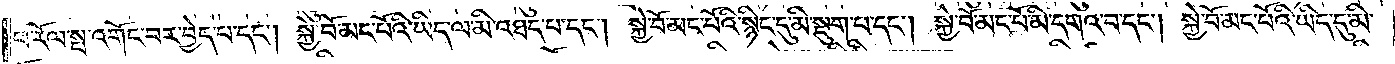ཕ་རོལ་སྤ་འགོང་བར་བྱེད་པ་དང༌། སྐྱེ་བོ་མང་པོའི་ཡིད་ལ་མི་འཐད་པ་དང༌། སྐྱེ་བོ་མང་པོའི་སྙིང་དུ་མི་སྡུག་པ་དང༌། སྐྱེ་བོ་མང་པོ་མི་དགའ་བ་དང༌། སྐྱེ་བོ་མང་པོའི་ཡིད་དུ་མི་
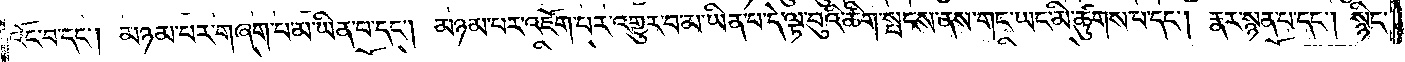འོང་བ་དང༌། མཉམ་པར་གཞག་པ་མ་ཡིན་པ་དང༌། མཉམ་པར་འཇོག་པར་འགྱུར་བ་མ་ཡིན་པ་དེ་ལྟ་བུའི་ཚིག་སྤངས་ནས་གང་ཡང་མི་ཚུགས་པ་དང༌། རྣར་སྙན་པ་དང༌། སྙིང་
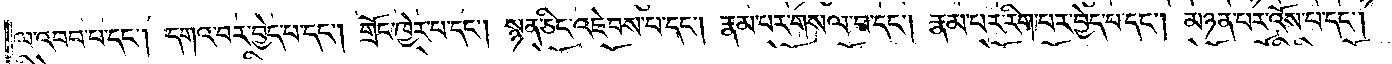ལ་འབབ་པ་དང༌། དགའ་བར་བྱེད་པ་དང༌། གྲོང་ཁྱེར་པ་དང༌། སྙན་ཅིང་འཇེབས་པ་དང༌། རྣམ་པར་གསལ་བ་དང༌། རྣམ་པར་རིག་པར་བྱེད་པ་དང༌། མཉན་པར་འོས་པ་དང༌།
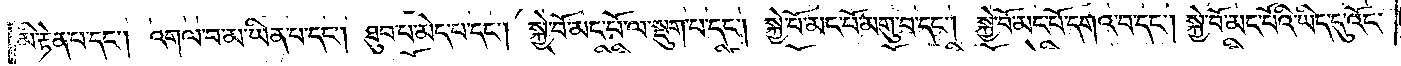མི་རྟེན་པ་དང༌། འགལ་བ་མ་ཡིན་པ་དང༌། ཐུབ་པ་མེད་པ་དང༌། སྐྱེ་བོ་མང་པོ་ལ་སྡུག་པ་དང༌། སྐྱེ་བོ་མང་པོ་མགུ་བ་དང༌། སྐྱེ་བོ་མང་པོ་དགའ་བ་དང༌། སྐྱེ་བོ་མང་པོའི་ཡིད་དུ་འོང་
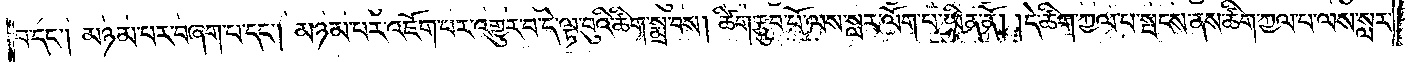བ་དང༌། མཉམ་པར་བཞག་པ་དང༌། མཉམ་པར་འཇོག་པར་འགྱུར་བ་དེ་ལྟ་བུའི་ཚིག་སྨྲ་བས། ཚིག་རྩུབ་པོ་ལས་སླར་ལོག་པ་ཡིན་ནོ། །དེ་ཚིག་ཀྱལ་པ་སྤངས་ནས་ཚིག་ཀྱལ་པ་ལས་སླར་
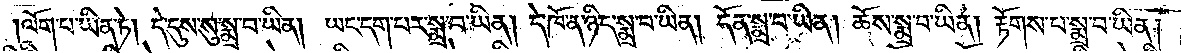ལོག་པ་ཡིན་ཏེ། དེ་དུས་སུ་སྨྲ་བ་ཡིན། ཡང་དག་པར་སྨྲ་བ་ཡིན། དེ་ཁོ་ན་ཉིད་སྨྲ་བ་ཡིན། དོན་སྨྲ་བ་ཡིན། ཆོས་སྨྲ་བ་ཡིན། རྟོགས་པ་སྨྲ་བ་ཡིན།
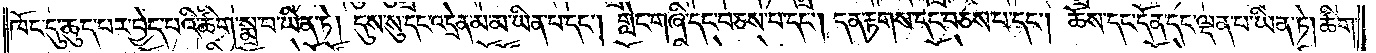ཁོང་དུ་ཆུད་པར་བྱེད་པའི་ཚིག་སྨྲ་བ་ཡིན་ཏེ། དུས་སུ་དང་འདྲེན་མ་མ་ཡིན་པ་དང༌། གླེང་གཞི་དང་བཅས་པ་དང༌། དན་རྟགས་དང་བཅས་པ་དང༌། ཆོས་དང་དོན་དང་ལྡན་པ་ཡིན་ཏེ། ཚིག་
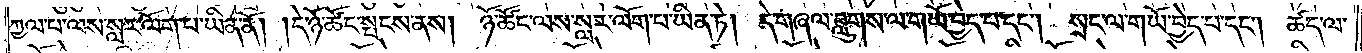ཀྱལ་པ་ལས་སླར་ལོག་པ་ཡིན་ནོ། །དེ་ཉོ་ཚོང་སྤངས་ནས། ཉོ་ཚོང་ལས་སླར་ལོག་པ་ཡིན་ཏེ། དེ་གཞལ་བླུགས་ལ་གཡོ་བྱེད་པ་དང༌། སྲང་ལ་གཡོ་བྱེད་པ་དང༌། ཚད་ལ་
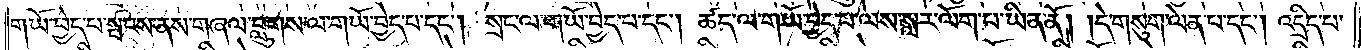གཡོ་བྱེད་པ་སྤངས་ནས་གཞལ་བླུགས་ལ་གཡོ་བྱེད་པ་དང༌། སྲང་ལ་གཡོ་བྱེད་པ་དང༌། ཚད་ལ་གཡོ་བྱེད་པ་ལས་སླར་ལོག་པ་ཡིན་ནོ། །དེ་གསུག་ལེན་པ་དང༌། འདྲིད་པ་
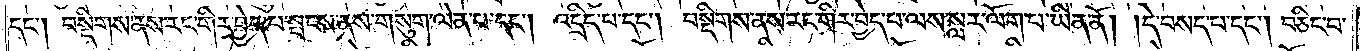དང༌། བསྡིགས་ནས་རང་གིར་བྱེད་པ་སྤངས་ནས་གསུག་ལེན་པ་དང༌། འདྲིད་པ་དང༌། བསྡིགས་ནས་རང་གིར་བྱེད་པ་ལས་སླར་ལོག་པ་ཡིན་ནོ། །དེ་བསད་པ་དང༌། བཅིང་བ་
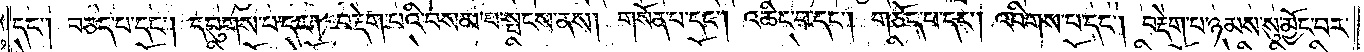དང༌། བཅད་པ་དང༌། དབུགས་པ་དང༌། བརྡེག་པའི་བསམ་པ་སྤངས་ནས། གསོན་པ་དང༌། འཆིང་བ་དང༌། གཅོད་པ་དང༌། འབིགས་པ་དང༌། བརྡེག་པ་ཉམས་སུ་མྱོང་བར་
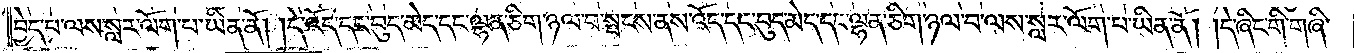བྱེད་པ་ལས་སླར་ལོག་པ་ཡིན་ནོ། །དེ་འོད་དང་བུད་མེད་དང་ལྷན་ཅིག་ཉལ་བ་སྤངས་ནས་འོད་དང་བུད་མེད་དང་ལྷན་ཅིག་ཉལ་བ་ལས་སླར་ལོག་པ་ཡིན་ནོ། །དེ་ཞིང་གི་གཞི་
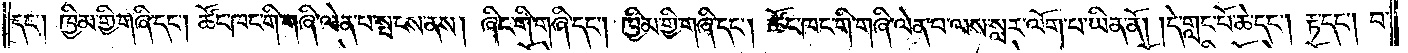དང༌། ཁྱིམ་གྱི་གཞི་དང༌། ཚོང་ཁང་གི་གཞི་ལེན་པ་སྤངས་ནས། ཞིང་གི་གཞི་དང༌། ཁྱིམ་གྱི་གཞི་དང༌། ཚོང་ཁང་གི་གཞི་ལེན་པ་ལས་སླར་ལོག་པ་ཡིན་ནོ། །དེ་གླང་པོ་ཆེ་དང༌། རྟ་དང༌། བ་
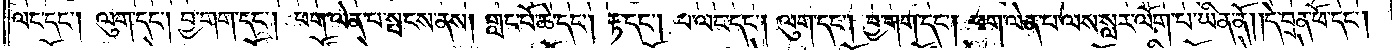ལང་དང༌། ལུག་དང༌། བྱ་གག་དང༌། ཕག་ལེན་པ་སྤངས་ནས། གླང་པོ་ཆེ་དང༌། རྟ་དང༌། བ་ལང་དང༌། ལུག་དང༌། བྱ་གག་དང༌། ཕག་ལེན་པ་ལས་སླར་ལོག་པ་ཡིན་ནོ། །དེ་བྲན་ཕོ་དང༌།
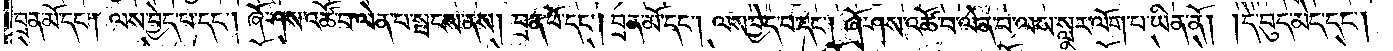བྲན་མོ་དང༌། ལས་བྱེད་པ་དང༌། ཞོ་ཤས་འཚོ་བ་ལེན་པ་སྤངས་ནས། བྲན་ཕོ་དང༌། བྲན་མོ་དང༌། ལས་བྱེད་པ་དང༌། ཞོ་ཤས་འཚོ་བ་ལེན་པ་ལས་སླར་ལོག་པ་ཡིན་ནོ། །དེ་བུད་མེད་དང༌།
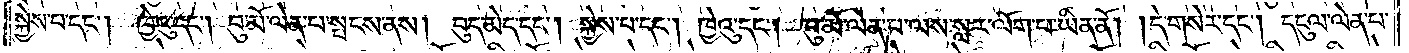སྐྱེས་པ་དང༌། ཁྱེའུ་དང༌། བུ་མོ་ལེན་པ་སྤངས་ནས། བུད་མེད་དང༌། སྐྱེས་པ་དང༌། ཁྱེའུ་དང༌། བུ་མོ་ལེན་པ་ལས་སླར་ལོག་པ་ཡིན་ནོ། །དེ་གསེར་དང༌། དངུལ་ལེན་པ་
